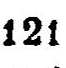121
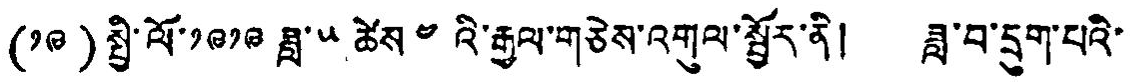(༡༩)སྤྱི་ལོ་༡༩༡༩ ཟླ་༥ ཚེས་༤འི་རྒྱལ་གཅེས་འགུལ་སྦྱོར་ནི། ཟླ་བ་དྲུག་པའི་
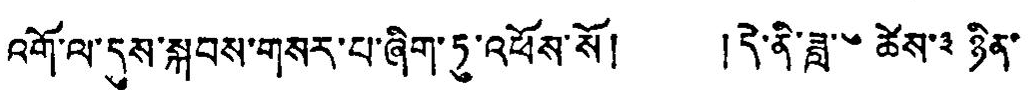འགོ་ལ་དུས་སྐབས་གསར་པ་ཞིག་ཏུ་འཕོས་སོ། །དེ་ནི་ཟླ་༦ ཚེས་༣ ཉིན་
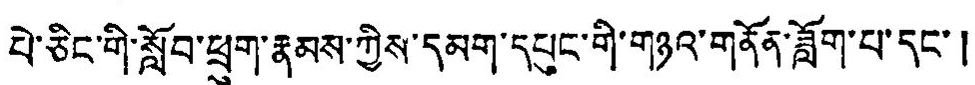པེ་ཅིང་གི་སློབ་ཕྲུག་རྣམས་ཀྱིས་དམག་དཔུང་གི་གཉའ་གནོན་ཟློག་པ་དང་།
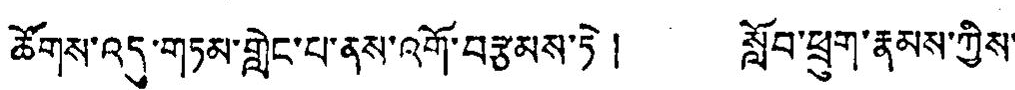ཚོགས་འདུ་གཏམ་གླེང་པ་ནས་འགོ་བརྩམས་ཏེ། སློབ་ཕྲུག་རྣམས་ཀྱིས་
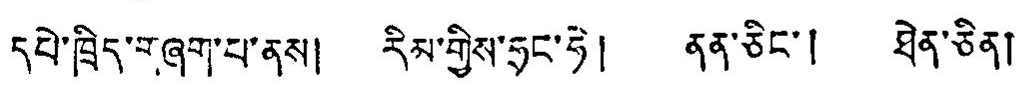དཔེ་ཁྲིད་གཞག་པ་ནས། རིམ་གྱི་ཧྲང་ཧེ། ནན་ཅིང་། ཐེན་ཅིན།
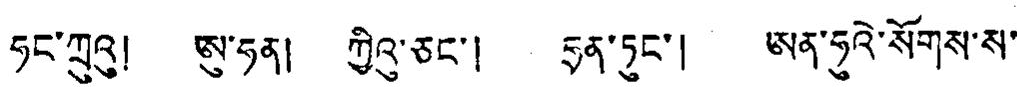ཧང་ཀྲུའུ། ཨུ་ཧན། ཀྱིའུ་ཅང་། ཧྲན་ཏུང་། ཨན་ཧུའེ་སོགས་ས་
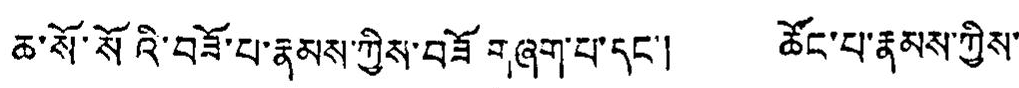ཆ་སོ་སོའི་བཟོ་པ་རྣམས་ཀྱིས་བཟོ་གཞག་པ་དང་། ཚོང་པ་རྣམས་ཀྱིས་
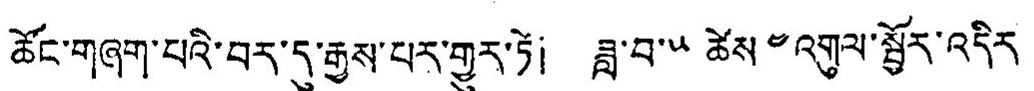ཚོང་གཞག་པའི་བར་དུ་རྒྱས་པར་གྱུར་ཏེ། ཟླ་བ་༥ ཚེས་༤ འགུལ་སྦྱོར་འདིར
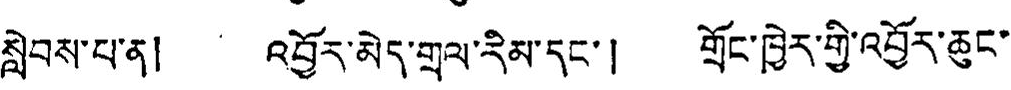སླེབས་པ་ན། འབྱོར་མེད་གྲལ་རིམ་དང་། གྲོང་ཁྱེར་གྱི་འབྱོར་ཆུང་
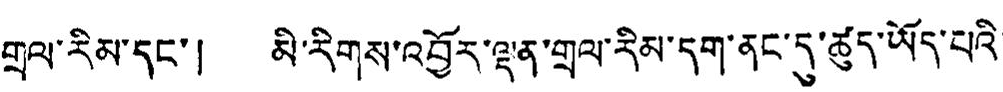གྲལ་རིམ་དང་། མི་རིགས་འབྱོར་ལྡན་གྲལ་རིམ་དག་ནང་དུ་ཚུད་ཡོད་པའི་
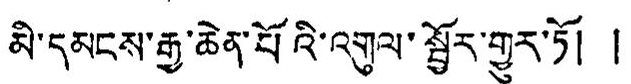མི་དམངས་རྒྱ་ཆེན་པོའི་འགུལ་སྦྱོར་གྱུར་ཏོ། །
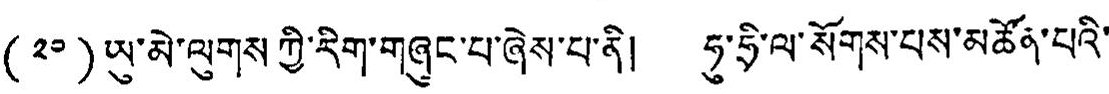(༢༠)ཡུ་མེ་ལུགས་ཀྱི་རིག་གཞུང་པ་ཞེས་པ་ནི། ཧུ་ཧྲི་ལ་སོགས་པས་མཚོན་པའི་
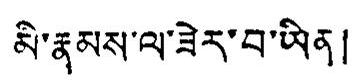མི་རྣམས་ལས་ཟེར་བ་ཡིན།
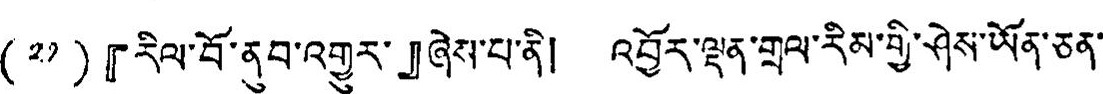(༢༡)『རིལ་བོ་ནུབ་འགྱུར་』ཞེས་པ་ནི། འབྱོར་ལྡན་གྲལ་རིམ་གྱི་ཤེས་ཡོན་ཅན་
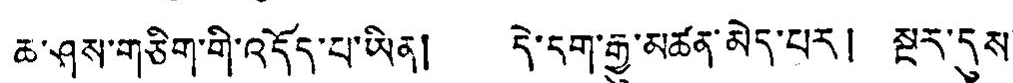ཆ་ཤས་གཅིག་གི་འདོད་པ་ཡིན། དེ་དག་རྒྱུ་མཚན་མེད་པར། སྔར་དུས་
